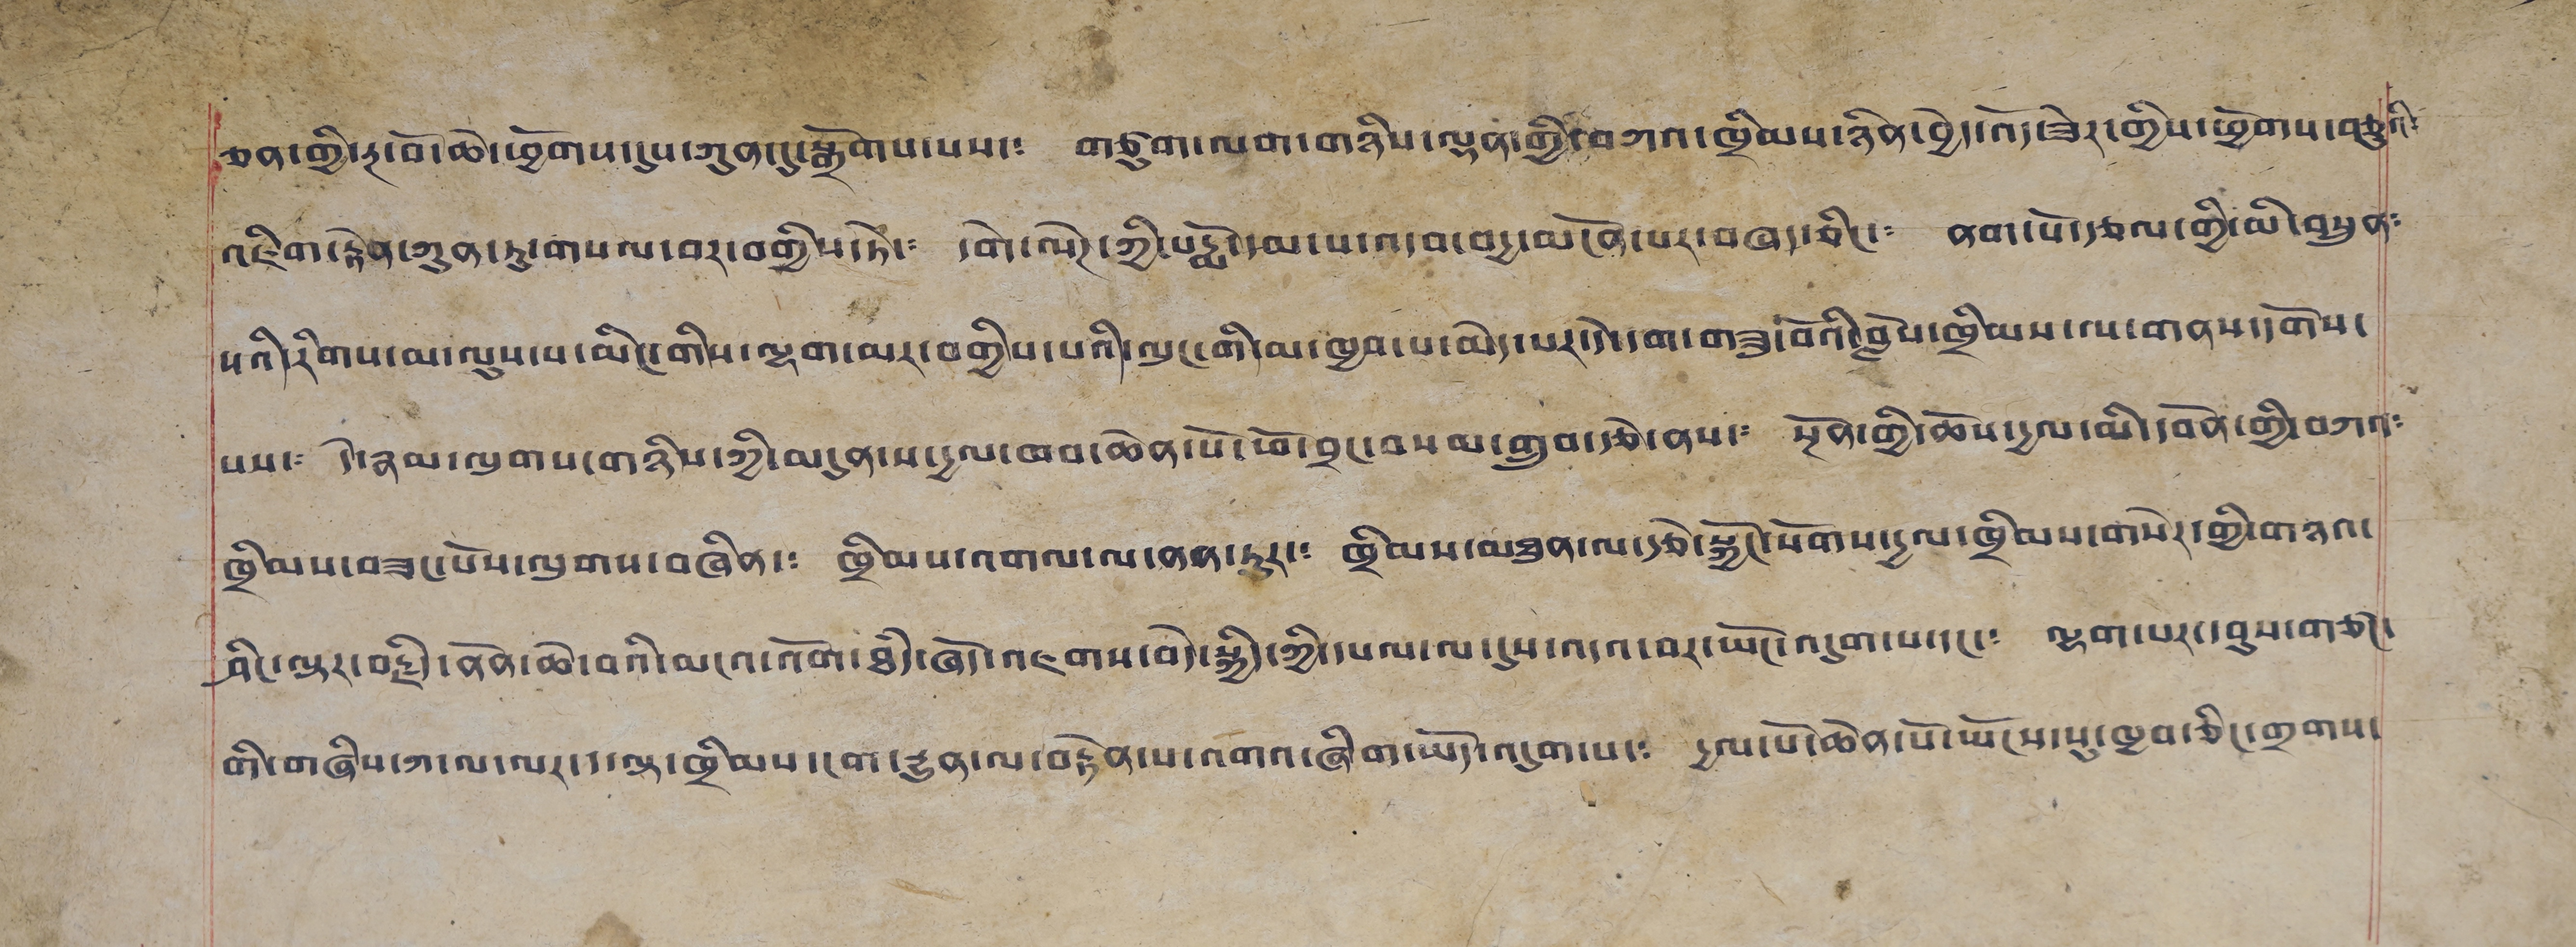ཅན་གྱི་རྔ་བོ་ཆེ་ཕྱོགས་དུས་ཀུན་དུ་སྒྲོགས་པས་༴ གཙུག་ལག་གཉིས་ལྡན་གྱི་བཀའ་ཁྲིམས་ཉིན་བྱེད་འོད་ཟེར་གྱིས་ཕྱོགས་བཅུའི༴
འཇིག་རྟེན་ཀུན་ཏུ་གསལ་བར་བགྱིས་ཏེ་༴ དགེ་ལེཊ་ཀྱི་པདྨོ་དམ་པ་འདབ་བདྱ་མངོན་པར་བཞད་ཅིང་༴ ནག་པོ་རྩལ་གྱི་མི་བསྲུན༴
པའི་རིགས་མ་ལུས་པ་མིང་གིས་ལྷག་མར་བགྱིས་པའི་ལུང་གི་མ་ཁྱབ་པ་མེད་པར་དེ་དག་གཟུ་བོའི་བློས་ཁྲིམས་ལ་གནས་དགོས་
པས་༴ དེ་རྣམ་ལུགས་གཉིས་ཀྱི་མདུན་པ་དྱལ་ཁབ་ཆེན་པོ་ཕོ་བྲང་བསམ་གྲུབ་རྩེ་ནས་༴ སྔོན་གྱི་ཆོས་དྱལ་མི་དབོན་གྱི་བཀའ༴
ཁྲིམས་བཟང་པོས་ལུགས་བཞིན་༴ ཁྲིམས་འགལ་ལ་ནན་ཏུར་༴ ཁྲིམས་མཐུན་ལ་རྩེ་སྐྱོང་སོགས་དྱལ་ཁྲིམས་གསེར་གྱི་གཉའ་
ཤིང་ལྟར་བརྗིད་ནོན་ཆེ་བའི་མངའ་འོག་ཐཾད་ཞོད་འཇགས་བདེ་སྐྱིད་ཀྱི་དཔལ་ལ་དུས་འདའ་བར་ཡོང་འདུག་པ་དང་༴ ལྷག་པར་དབུས་གཙང་
གི་གཞིས་ཀ་ལ་ལར་ད་ལྟ་ཁྲིམས་ངག་རྒྱུན་ལ་བརྟེན་པ་འགའ་ཞིག་ཡོད་འདུག་པ་༴ དྱལ་པོ་ཆེན་པོ་ཡོངས་པ་ཁྱབ་ཅིང་གྲགས་
